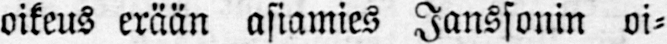oikeus erään asiamies Janssonin oi-
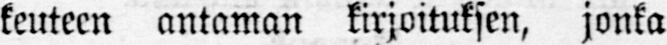keuteen antaman kirjoituksen, jonka
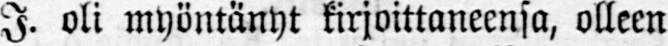I. oli myöntänyt kirjoittaneensa, olleen
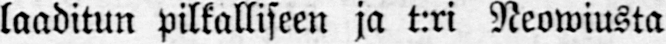laaditun pilkalliseen ja t:ri Neowiusta
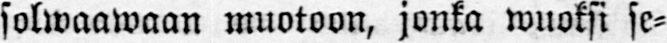solwaawaan muotoon, jonka wuoksi se-
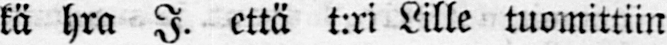kä hra I. että t:ri Lille tuomittiin
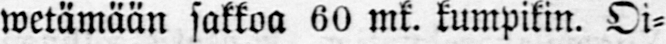wetämään sakkoa 60 mk. kumpikin. Oi-
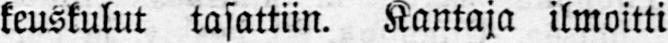keuskulut tasattiin. Kantaja ilmoitti
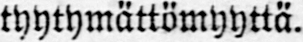tyytymättömyyttä.
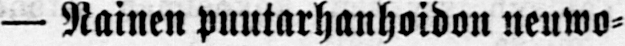— Nainen puutarhanhoidon neuwo-
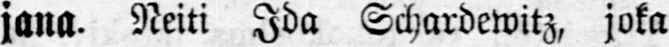jana. Neiti Ida Schardewitz, joka
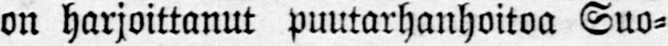on harjoittanut puutarhanhoitoa Suo-
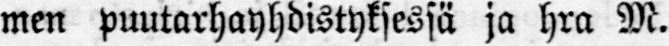men puutarhayhdistyksessä ja hra M.
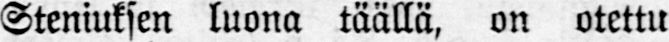Steniuksen luona täällä, on otettu
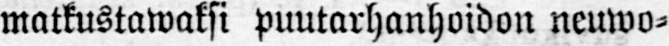matkustawaksi puutarhanhoidon neuwo-
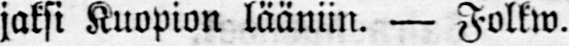jaksi Kuopion lääniin. — Folkw.
